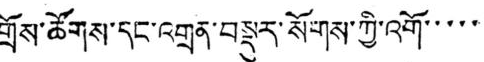གྲོས་ཚོགས་དང་འགྲན་བསྡུར་སོགས་ཀྱི་འགོ་་་་་
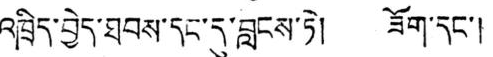འཁྲིད་བྱེད་ཐབས་དང་དུ་བླངས་ཏེ། ཟོག་དང་།
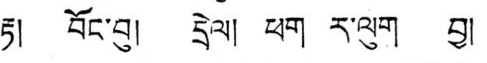རྟ། བོང་བུ། དྲེལ། ཕག ར་ལུག བྱ།
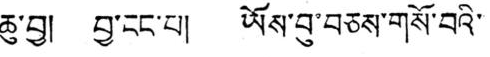ཆུ་བྱ། བྱ་ངང་པ། ཡོས་བུ་བཅས་གསོ་བའི་
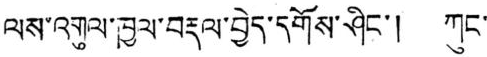ལས་འགུལ་ཁྱལ་བརྡལ་བྱེད་དགོས་ཤིང་། ཀུང་
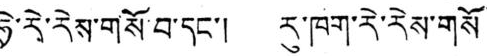ཧྲེ་རེ་རེས་གསོ་བ་དང་། རུ་ཁག་རེ་རེས་གསོ
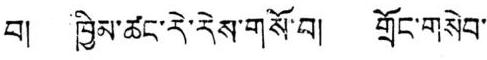བ། ཁྱིམ་ཚང་རེ་རེས་གསོ་བ། གྲོང་གསེབ་
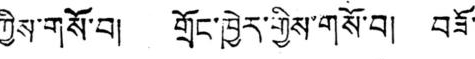ཀྱིས་གསོ་བ། གྲོང་ཁྱེར་གྱིས་གསོ་བ། བཟོ་
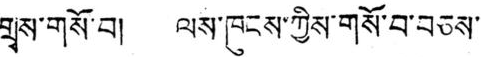གྲྭས་གསོ་བ། ལས་ཁུངས་ཀྱིས་གསོ་བ་བཅས་
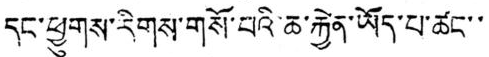དང་ཕྱུགས་རིགས་གསོ་པའི་ཆ་རྐྱེན་ཡོད་པ་ཚང་་
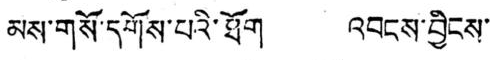མས་གསོ་དགོས་པའི་ཐོག འབངས་བྱིངས་
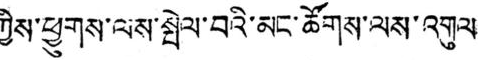ཀྱིས་ཕྱུགས་ལས་སྤེལ་བའི་མང་ཚོགས་ལས་འགུལ
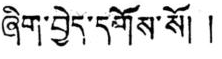ཞིག་བྱེད་དགོས་སོ། །
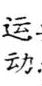运动
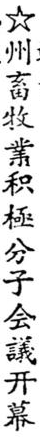☆州畜牧業积極分子会議开幕
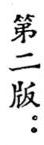第二版：
